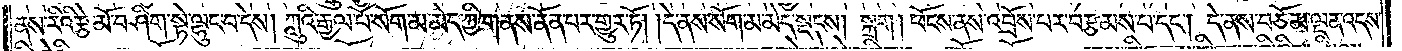ནས་རིའི་རྩེ་མོ་བཤིག་སྟེ་ལྷུང་བ་དེས། ཀླུའི་རྒྱལ་པོ་སོག་མ་མེད་ཀྱི་གནས་ནོན་པར་གྱུར་ཏོ། །དེ་ནས་སོག་མ་མེད་སྡངས། སྐྲག །ཕོངས་ནས་འབྲོས་པར་བརྩམས་པ་དང༌། དེ་ནས་བཅོམ་ལྡན་འདས་
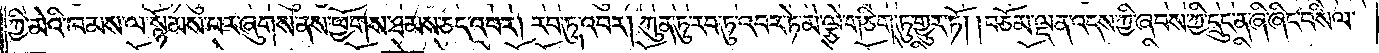ཀྱི་མེའི་ཁམས་ལ་སྙོམས་པར་ཞུགས་ནས་ཕྱོགས་ཐམས་ཅད་འབར། རབ་ཏུ་འབར། ཀུན་ཏུ་རབ་ཏུ་འབར་ཏེ་མེ་ལྕེ་གཅིག་ཏུ་གྱུར་ཏོ། །བཅོམ་ལྡན་འདས་ཀྱི་ཞབས་ཀྱི་དྲུང་ན་ཞི་ཞིང་བསིལ་
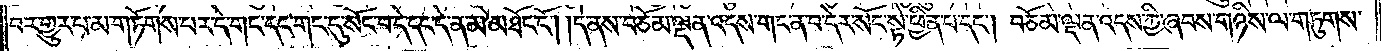བར་གྱུར་པ་མ་གཏོགས་པར་དེ་གང་དང་གང་དུ་སོང་བ་དེ་དང་དེ་ན་མི་མཐོང་ངོ༌། །དེ་ནས་བཅོམ་ལྡན་འདས་གང་ན་བ་དེར་སོང་སྟེ་ཕྱིན་པ་དང༌། བཅོམ་ལྡན་འདས་ཀྱི་ཞབས་གཉིས་ལ་གཏུགས་
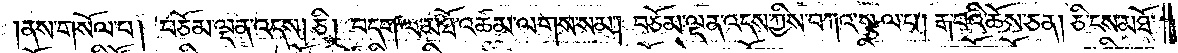ནས་གསོལ་པ། བཅོམ་ལྡན་འདས། ཅི། བདག་ལ་མཐོ་འཚམ་ལགས་སམ། བཅོམ་ལྡན་འདས་ཀྱིས་བཀའ་སྩལ་པ། རྒ་བའི་ཆོས་ཅན། ཅི་ངས་མཐོ་
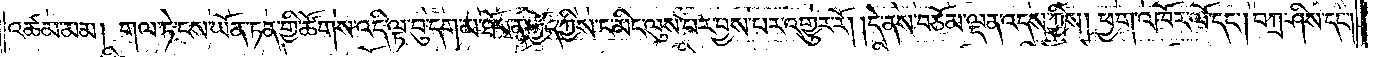འཚམ་མམ། གལ་ཏེ་ངས་ཡོན་ཏན་གྱི་ཚོགས་འདི་ལྟ་བུ་དག་མ་ཐོབ་ན་ཁྱོད་ཀྱིས་ང་མིང་ལུས་པར་བྱས་པར་འགྱུར་རོ། །དེ་ནས་བཅོམ་ལྡན་འདས་ཀྱིས། ཕྱག་འཁོར་ལོ་དང༌། བཀྲ་ཤིས་དང༌།
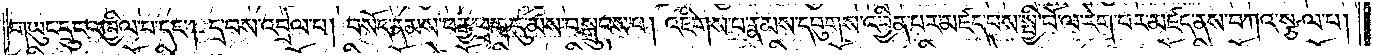གཡུང་དྲུང་འཁྱིལ་པ་དང༌། དྲ་བས་འབྲེལ་པ། བསོད་ནམས་བརྒྱ་ཕྲག་དུ་མས་བསྒྲུབས་པ། འཇིགས་པ་རྣམས་དབུགས་འབྱིན་པར་མཛད་པས་སྤྱི་བོ་ལ་རེག་པར་མཛད་ནས་བཀའ་སྩལ་པ།
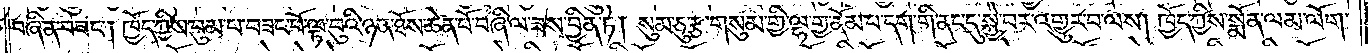བཞིན་བཟང༌། ཁྱོད་ཀྱིས་བུམ་པ་བཟང་པོ་ལྟ་བུའི་ཉན་ཐོས་ཆེན་པོ་བཞི་ལ་ཟས་བྱིན་ཏེ། སུམ་ཅུ་རྩ་གསུམ་གྱི་ལྷ་གྱ་ནོམ་པ་དག་གི་ནང་དུ་སྐྱེ་བར་འགྱུར་བ་ལས། ཁྱོད་ཀྱིས་སྨོན་ལམ་ལོག་
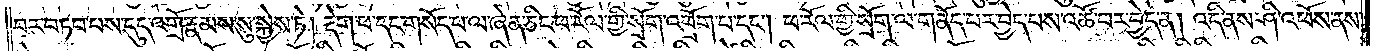བར་བཏབ་པས་དུད་འགྲོ་རྣམས་སུ་སྐྱེས་ཏེ། རྡེག་པ་དང་གསོད་པ་ལ་ཞེན་ཅིང་ཕ་རོལ་གྱི་སྲོག་འཕྲོག་པ་དང༌། ཕ་རོལ་གྱི་སྲོག་ལ་གནོད་པར་བྱེད་པས་འཚོ་བར་བྱེད་ན། འདི་ནས་ཤི་འཕོས་ནས་
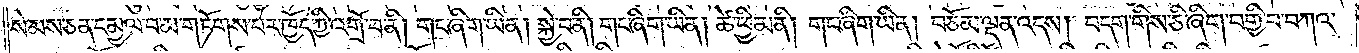སེམས་ཅན་དམྱལ་བ་མ་གཏོགས་པར་ཁྱོད་ཀྱི་འགྲོ་བ་ནི། གང་ཞིག་ཡིན། སྐྱེ་བ་ནི། གང་ཞིག་ཡིན། ཚེ་ཕྱི་མ་ནི། གང་ཞིག་ཡིན། བཅོམ་ལྡན་འདས། བདག་གིས་ཅི་ཞིག་བགྱི་བ་བཀའ་
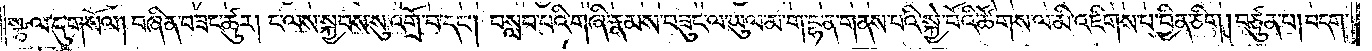སྩལ་དུ་གསོལ། བཞིན་བཟང་ཚུར། ང་ལས་སྐྱབས་སུ་འགྲོ་བ་དང༌། བསླབ་པའི་གཞི་རྣམས་བཟུང་ལ་ཡུལ་མ་ག་དྷ་ན་གནས་པའི་སྐྱེ་བོའི་ཚོགས་ལ་མི་འཇིགས་པ་བྱིན་ཅིག །བཙུན་པ། བདག་
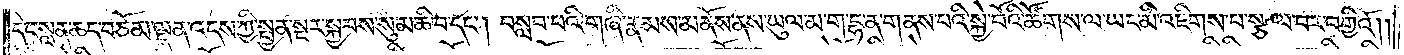དེང་སླན་ཆད་བཅོམ་ལྡན་འདས་ཀྱི་སྤྱན་སྔར་སྐྱབས་སུ་མཆི་བ་དང༌། བསླབ་པའི་གཞི་རྣམས་མནོས་ནས་ཡུལ་མ་ག་དྷ་ན་གནས་པའི་སྐྱེ་བོའི་ཚོགས་ལ་ཡང་མི་འཇིགས་པ་སྩལ་བར་བགྱིའོ། །
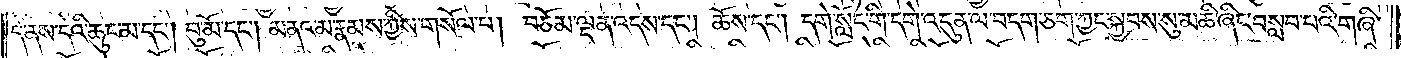དེ་ནས་དེའི་ཆུང་མ་དང༌། བུ་མོ་དང༌། མནའ་མ་རྣམས་ཀྱིས་གསོལ་པ། བཅོམ་ལྡན་འདས་དང༌། ཆོས་དང༌། དགེ་སློང་གི་དགེ་འདུན་ལ་བདག་ཅག་ཀྱང་སྐྱབས་སུ་མཆི་ཞིང་བསླབ་པའི་གཞི་
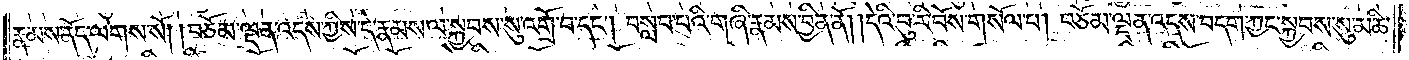རྣམས་ནོད་ལགས་སོ། །བཅོམ་ལྡན་འདས་ཀྱིས་དེ་རྣམས་ལ་སྐྱབས་སུ་འགྲོ་བ་དང༌། བསླབ་པའི་གཞི་རྣམས་བྱིན་ནོ། །དེའི་བུ་རི་བོས་གསོལ་པ། བཅོམ་ལྡན་འདས་བདག་ཀྱང་སྐྱབས་སུ་མཆི་
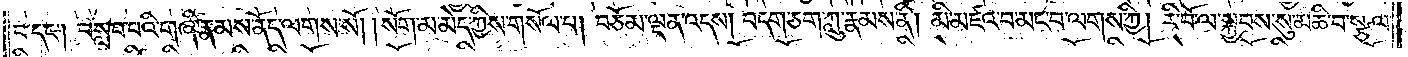བ་དང༌། བསླབ་པའི་གཞི་རྣམས་ནོད་ལགས་སོ། །སོག་མ་མེད་ཀྱིས་གསོལ་པ། བཅོམ་ལྡན་འདས། བདག་ཅག་ཀླུ་རྣམས་ནི། མི་མཛའ་བ་མང་བ་ལགས་ཀྱི། རི་བོ་ལ་སྐྱབས་སུ་མཆི་བ་སྩལ་
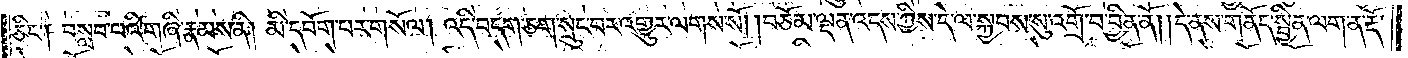ཅིང༌། བསླབ་པའི་གཞི་རྣམས་ནི། མི་དབོག་པར་གསོལ། འདི་དག་ཅག་སྲུང་བར་འགྱུར་ལགས་སོ། །བཅོམ་ལྡན་འདས་ཀྱིས་དེ་ལ་སྐྱབས་སུ་འགྲོ་བ་བྱིན་ནོ། །དེ་ནས་གནོད་སྦྱིན་ལག་ན་རྡོ་
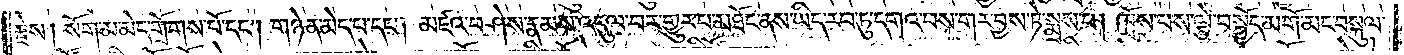རྗེས། སོག་མ་མེད་གྲོགས་པོ་དང༌། གཉེན་མེད་པ་དང༌། མཛའ་བཤེས་རྣམས་འདུལ་བར་གྱུར་པ་མཐོང་ནས་ཡིད་རབ་ཏུ་དགའ་བས་གར་བྱས་ཏེ་སྨྲས་པ། ཁྲོས་པས་ལྕེ་བསྐྱོད་མགོ་མང་བསྐུལ་
